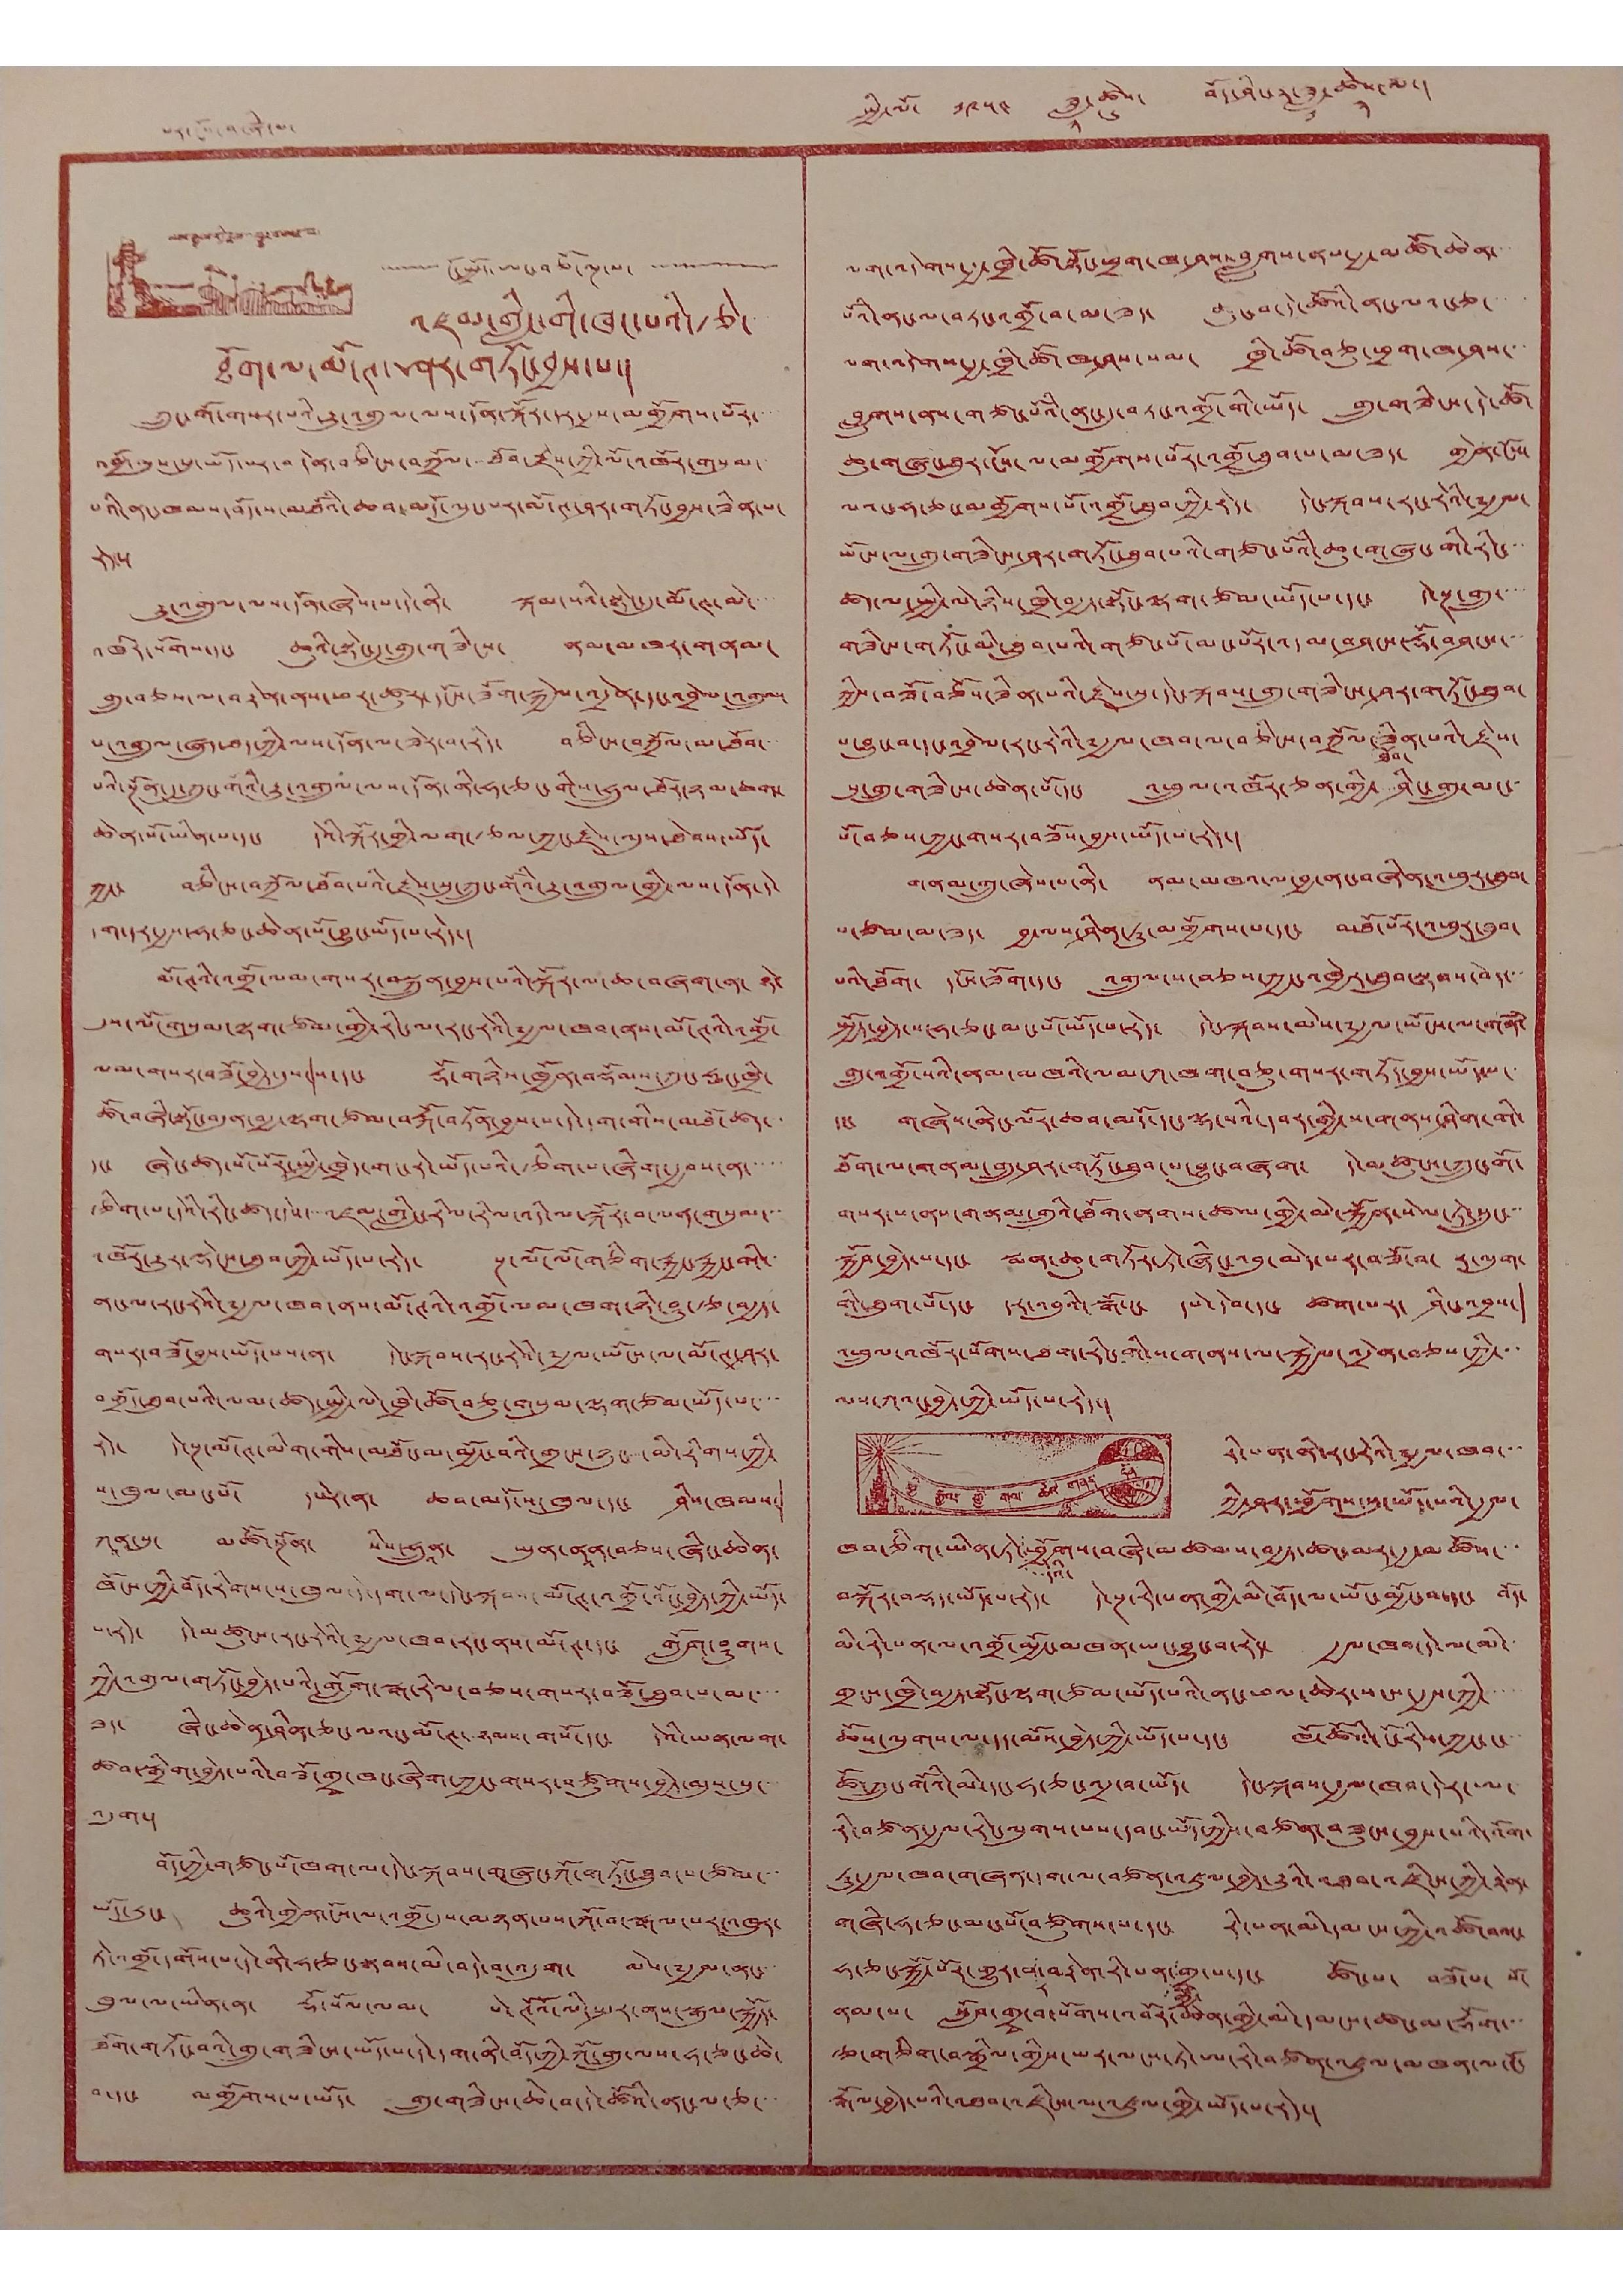པར་ངོས་བཞི་པ་ སྤྱི་ལོ་ ༡༩༥༤ ཟླ་
༢
ཚེས་
༦
བོད་ཤིང་རྟ་ཟླ་
༡
ཚེས་
༢
ལ་།
མེས་རྒྱལ་གི་
ངོ་སྤྲོད་ཨང་བཅོ་ལྔ་པ་
འཛམ་གླིང་གི་ཁང་པའི་རྩེ་
ཐོག་ལ་མོ་ཊ་ཤར་གཏོང་བྱས་པ་།
ཀྲུང་གོ་གསར་པའི་རྒྱུ་འགྲུལ་ལས་དོན་སྐོར་དར་རྒྱས་མགྱོགས་པོར་་་་
འགྲོ་མུས་དུ་ཡོད་པར་བདེན་བཅིངས་བཀྲོལ་་་ཐོབ་རྗེས་ཀྱི་ལོ་འཁོར་གསུམ་
པའི་ནང་ཁམས་བོད་ས་མཐོའི་ཆབ་མདོ་ལུང་པར་མོ་ཊ་ཤར་གཏོང་བྱས་ཟིན་པ་
རེད་།
རྒྱུ་འགྲུལ་ལས་དོན་ཞེས་པ་དེ་ནི་ སྐམ་སའི་སྟེང་དུ་མོ་ཊ་མེ་་་་
འཁོར་སོགས་དང་ ཆུའི་སྟེང་དུ་གྲུ་གཟིངས་ ནམ་མཁར་གནམ་
གྲུ་བཅས་ལ་བརྟེན་ནས་ཕར་ཚུར་དངོས་ཟོག་སྐྱེལ་འདྲེན་དང་འབྲེལ་འགྲུལ་
པ་འགྲུལ་ཞུད་ཐད་ཀྱི་ལས་དོན་ལ་ཟེར་བ་རེད་ བཅིངས་བཀྲོལ་མ་ཐོབ་་་
པའི་སྔོན་དུ་ཀྲུང་གོའི་རྒྱུ་འགྲུལ་ལས་དོན་ནི་ཧ་ཅང་གིས་ཧྲུལ་ཐོར་ཉམ་ཆག་
ཆེན་པོ་ཡིན་པ་དང་ དེའི་སྐོར་གྱི་ལག་རྩལ་ཀྱང་རྗེས་ལུས་ཐེབས་ཡོད་
ཀྱང་ བཅིངས་བཀྲོལ་ཐོབ་པའི་རྗེས་སུ་ཀྲུང་གོའི་རྒྱུ་འགྲུལ་གྱི་ལས་དོན་དེ་
དག་དར་རྒྱས་ཧ་ཅང་ཆེན་པོ་བྱུང་ཡོད་པ་རེད་།
མོ་ཊའི་འགྲོ་ལམ་གསར་བསྐྲུན་བྱས་པའི་སྐོར་ལ་ཆ་བཞག་ན་ ཉེ་
དུས་ལོ་གསུམ་ལྷག་ཙམ་གྱི་རིང་ལ་རང་རེའི་༸རྒྱལ་ཁབ་ནས་མོ་ཊའི་འགྲོ་
ལམ་གསར་བཟོ་བྱེད་དུས་ས་དང་ རྡོ་གཉིས་ཁྱོན་བསྡོམས་དཀུང་ཧྥང་ཁྲི་
ཚོ་བཞི་སྟོང་བདུན་བརྒྱ་ལྷག་ཙམ་བརྐོ་བཏོན་བྱས་པ་དེ་དག་གིས་མཐོ་ཚད་
དང་ ཞེང་ཚད་སོ་སོར་སྤྱི་ཁྲེད་གང་རེ་ཡོད་པའི་རྩིག་པ་ཞིག་རྒྱབས་ན་་་་
རྩིག་པ་དེའི་རིང་ཚད་དེས་་་འཛམ་གླིང་རིལ་རིལ་འདི་ལ་སྐོར་བ་ལན་གསུམ་་་
འཁོར་རྒྱུར་ལྡེངས་ཐུབ་ཀྱི་ཡོད་པ་རེད་ སྔ་ལོ་ལོ་གཅིག་རྐྱང་རྐྱང་གི་
ནང་ལ་རང་རེའི་༸རྒྱལ་ཁབ་ནས་མོ་ཊའི་འགྲོ་ལམ་ཁག་ཉི་ཤུ་རྩ་བརྒྱད་
གསར་བཟོ་བྱས་ཡོད་པས་ན་ དེང་སྐབས་རང་རེའི་༸རྒྱལ་ཡོངས་ལ་མོ་ཊ་ཤར་
བགྲོད་ཐུབ་པའི་ལམ་ཚད་སྤྱི་ལེ་ཁྲི་ཚོ་བཅུ་གསུམ་ལྷག་ཙམ་ཡོད་པ་་་
རེད་ དེ་སྔ་མོ་ཊ་མིག་གིས་མཐོ་ང་མ་མྱོང་བའི་གྲངས་ཉུང་་་་་མི་རིགས་ཀྱི་
ས་ཁུལ་མང་པོ་ དཔེར་ན་ ཆབ་མདོ་ས་ཁུལ་དང་ ཤིས་ཁམས་
ཀཱན་སུ་ མཚོ་སྔོན་ སིས་ཧྲུནཱ་ ཡུན་ནཱན་བཅས་ཞིང་ཆེན་
ཁོངས་ཀྱི་བོད་རིགས་ས་ཁུལ་དེ་དག་ལ་དེང་སྐབས་མོ་ཊ་འགྲོ་འོང་བྱེད་ཀྱི་ཡོད་
པ་རེད་ དེ་མཚུངས་རང་རེའི་༸རྒྱལ་ཁབ་རང་ནས་མོ་ཊ་དང་ གློག་ཤུགས་
ཀྱི་འགུལ་གཏོང་བྱེད་པའི་གློག་སྒ་རིལ་བཅས་གསར་བཟོ་ཐུབ་པ་མ་་
ཟད་ ཞིང་ཆེན་ཤིན་ཅང་ལའང་མོ་ཊ་་ཉམས་གསོ་དང་ དེའི་ཡན་ལག་
ཚབ་སྒྲིག་བྱེད་པའི་བཟོ་གྲྭ་ཁང་ཞིག་ཀྱང་གསར་བཙུགས་བྱེད་མུས་སུ་་
འདུག་།
བོད་ཀྱི་གཙང་པོ་ཁག་ལ་དེང་སྐབས་གཞུང་ཀོ་གཏོང་ཐུབ་པ་ཙམ་་་
ཡོད་རུང་ ཆུའི་གྱེན་ངོས་ལ་འགྲོ་དུས་མཉན་པས་ཀོ་བ་སྒལ་པར་འཁུར་
ཏེ་འགྲོ་དགོས་པ་དེ་ནི་ཧ་ཅང་སྟབས་མོ་བདེ་བ་འདུག་ མེས་༸རྒྱལ་ནང་་
ཁུལ་ལ་ཡིན་ན་ རྡོ་སོལ་ལམ་ པེ་ཊོའོ་ལི་སྤར་ནས་སྒུལ་སྐྱོད་
ཐོག་གཏོང་བའི་གྲུ་གཟིངས་ཡོད་པ་དེ་དག་ནི་བོད་ཀྱི་ཀོ་གྲུ་ལས་ཧ་ཅང་ཆེ་
བ་དང་ མགྱོགས་པ་ཡོད་ གྲུ་གཟིངས་ཆེ་བ་དེ་ཚོའི་ནང་ལ་ཅ་
ལག་འདེགས་རྒྱ་ཁྲི་ཚོ་སྟོང་ཕྲག་ཁ་ཤས་བླུགས་ནས་རྒྱ་མཚོ་ཆེན་་་
པོའི་ནང་ལ་བཏང་འགྲོ་བ་མ་ཟད་ ཆུང་བ་དེ་ཚོའི་ནང་ལའང་ཅ་་་་
ལག་འདེགས་རྒྱ་ཁྲི་ཚོ་ཁ་ཤས་སམ་ ཁྲི་ཚོ་བཅུ་ཕྲག་ཁ་ཤས་་་
བླུགས་ནས་གཙང་པོའི་ནང་དུ་བཏང་འགྲོ་གི་ཡོད་ གྲུ་གཟིངས་དེ་ཚོ་
ཆུ་གཞུང་ཐུར་ངོས་ལ་མགྱོགས་པོར་འགྲོ་ཐུབ་པ་མ་ཟད་ གྱེན་ངོས་
ལའང་ཧ་ཅང་མགྱོགས་པོ་འགྲོ་ཐུབ་ཀྱི་རེད་ དེང་སྐབས་རང་རེའི་༸རྒྱལ་
ཡོངས་ལ་གྲུ་གཟིངས་ཤར་གཏོང་ཐུབ་པའི་ཆུ་གཞུང་གི་རིང་་
ཚད་ལ་སྤྱི་ལེ་ཉིས་ཁྲི་བརྒྱད་སྟོང་ལྷག་ཙམ་ཡོད་པ་དང་ དེ་སྔ་གྲུ་་་
གཟིངས་གཏོང་མི་ཐུབ་པའི་གཙང་པོ་མང་པོར་འདམ་བཤངས་རྡོ་བཤངས་་
ཀྱིས་བཟོ་བཅོས་ཟིན་པའི་རྗེས་སུ་དེང་སྐབས་གྲུ་གཟིངས་ཤར་གཏོང་ཐུབ་
པ་བྱུང་བ་དང་འབྲེལ་རང་རེའི་༸རྒྱལ་ཁབ་ལ་བཅིངས་བཀྲོལ་
ཐོབ་
ཟིན་པའི་རྗེས་
སུ་གྲུ་གཟིངས་ཆེན་པོ་དང་ འཕྲུལ་འཁོར་ཅན་གྱི་ཤིང་གྲུ་མང་་
པོ་བཅས་ཀྱང་གསར་བཟོས་བྱས་ཡོད་པ་རེད་།
གནམ་གྲུ་ཞེས་པ་ནི་ ནམ་མཁའ་ལ་བྱ་ནང་བཞིན་འཕུར་ཐུབ་
པ་ཙམ་མ་ཟད་ བྱ་ལས་ཤིན་ཏུ་མགྱོགས་པ་དང་ མཐོ་པོར་འཕུར་ཐུབ་
པའི་ཐོག་ དངོས་ཟོག་དང་ འགྲུལ་པ་བཅས་ཀྱང་འཁྱེར་ཐུབ་སྟབས་བེད་་་
སྤྱོད་བྱེད་པ་ཧ་ཅང་མང་པོ་ཡོད་པ་རེད་ དེང་སྐབས་མེས་༸རྒྱལ་ཡོངས་ལ་གནཾ་
གྲུ་འགྲོ་སའི་ནམ་མཁའི་ལམ་ཀ་ཁག་བཅུ་གསར་གཏོང་བྱས་ཡོད་པ་
དང་ གཞེས་ནིང་ལོར་ཆབ་མདོ་དང་ལྷ་སའི་དབར་གྱི་ས་གནས་ཤིག་གི་
ཐོག་ལ་གནམ་གྲུ་ཤར་གཏོང་ཐུབ་པ་བྱུང་བཞག་ དེ་མཚུངས་ཀྲུང་གོ་
གསར་པ་ནས་གནམ་གྲུའི་ཐོག་ནགས་ཚལ་གྱི་མེ་སྐྱོན་སེལ་ཏེ་སྲུང་་་
སྐྱོབ་བྱེད་པ་དང་ སྨན་ཆུ་གཏོར་ཏེ་ཞིང་འབུ་མེད་པར་བཟོ་བ་ ར་ལུག་
གི་ཐུག་པོ་དང་ དར་འབུའི་སྒོ་ང་ དཔེ་དེབ་དང་ ཚག་པར་ ཤིང་འབྲས་
འཕྲུལ་འཁོར་སོགས་ཐག་རིང་གི་ས་གནས་ལ་སྐྱེལ་འདྲེན་བཅས་ཀྱི་་་
ལས་ཀའང་བྱེད་ཀྱི་ཡོད་པ་རེད་།
ཕྱི་རྒྱལ་གྱི་གལ་ཆེའི་གནད་དོན་
རི་པན་ནི་རང་རེའི་༸རྒྱལ་ཁབ་་་
ཀྱི་ཤར་ཕྱོགས་སུ་ཡོད་པའི་རྒྱལ་
ཁབ་ཅིག་ཡིན་ཏེ་
དེའི་
ཕྱོགས་བཞི་མཚམས་བརྒྱད་ཚང་མར་རྒྱ་མཚོས་་་
བསྐོར་བསྡད་ཡོད་པ་རེད་ དེ་སྔ་རི་པན་གྱི་མི་བོད་ལ་ཡོང་མྱོང་བ་དང་ བོད་
མི་རི་པན་ལ་འགྲོ་མྱོང་མཁན་ཡང་བྱུང་བ་རེད་ རྒྱལ་ཁབ་དེ་ལ་མི་་
གྲངས་ཁྲི་བརྒྱད་སྟོང་ལྷག་ཙམ་ཡོད་པའི་ནང་ཕལ་ཆེར་སངས་རྒྱས་ཀྱི་་་་་
ཆོས་ལུགས་ལ་དད་མོས་བྱེད་ཀྱི་ཡོད་པ་དང་ ཁོ་ཚོའི་ངོ་རིས་ཀྱང་ང་་་
ཚོ་ཀྲུང་གོའི་མི་དང་ཧ་ཅང་འདྲ་བ་ཡོད་ དེང་སྐབས་རྒྱལ་ཁབ་དེར་ལ་་
རི་བཙན་རྒྱལ་རིང་ལུགས་པས་དབང་ཡོད་ཀྱིས་བཙན་བཟུངས་བྱས་པའི་འོག་
ཏུ་རྒྱལ་ཁབ་གཞན་དག་ལ་བཙན་འཛུལ་བྱེད་རྒྱུའི་འཐབ་འཛིངས་ཀྱི་རྟེན་
གཞི་ཧ་ཅང་མང་པོ་བཙུགས་པ་དང་ རི་པན་མི་དམངས་ཀྱི་འཚོ་བའང་
ཧ་ཅང་སྐྱོ་པོར་འགྱུར་བ
ར
་བརྟེན་རི་པན་
གྱི་
གྲ་པ་དང་ ཚོང་པ་ བཟོ་པ་ སོ་
ནམ་པ་ སློབ་གྲྭ་བ་སོགས་འབོར་ཆེན་གྱི་མི་དམངས་ཚང་མ་རྡོག་་་
རྩ་གཅིག་བསྒྲིལ་གྱིས་ཡར་ལངས་ཏེ་ཨ་རི་བཙན་འཛུལ་མཁན་ལ་ངོ་
རྒོལ་བྱེད་པའི་འཐབ་འཛིངས་ལ་འཛུལ་གྱི་ཡོད་པ་རེད་།
